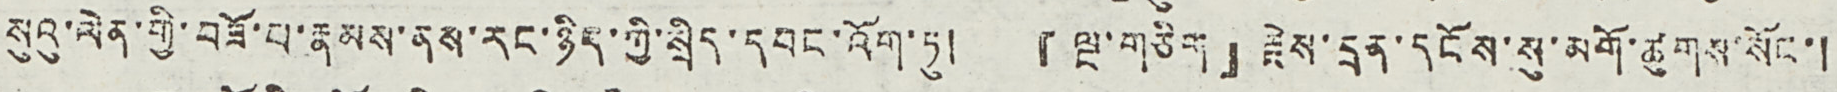སུའུ་ལེན་གྱི་བཟོ་པ་རྣམས་ནས་རང་ཉིད་ཀྱི་སྲིད་དབང་འོག་ཏུ། 『ལྔ་གཅིག』རྗེས་དྲན་དངོས་སུ་མགོ་ཚུགས་སོང་།
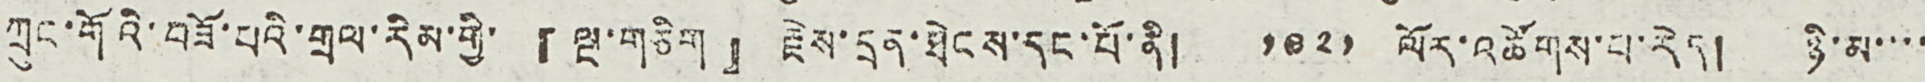ཀྲུང་གོའི་བཟོ་པའི་གྲལ་རིམ་གྱི་『ལྔ་གཅིག』རྗེས་དྲན་ཐེངས་དང་པོ་ནི། ༡༩༢༡ ལོར་འཚོགས་པ་རེད། ཉི་མ་་་་
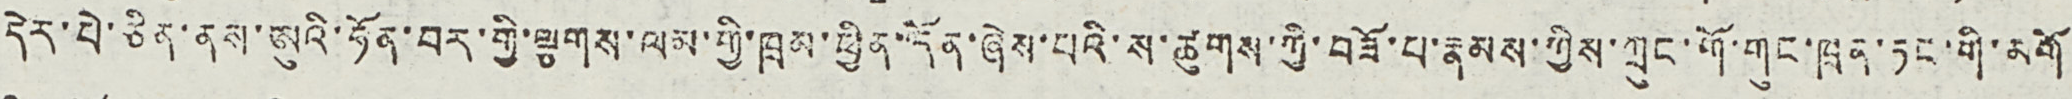དེར་པེ་ཅིན་ནས་ཨུའི་ཧོན་བར་གྱི་ལྕགས་ལམ་གྱི་ཁྲམ་ཕྱིན་དོན་ཞེས་པའི་ས་ཚུགས་ཀྱི་བཟོ་པ་རྣམས་ཀྱིས་ཀྲུང་གོ་གུང་ཁྲན་ཏང་གི་མགོ
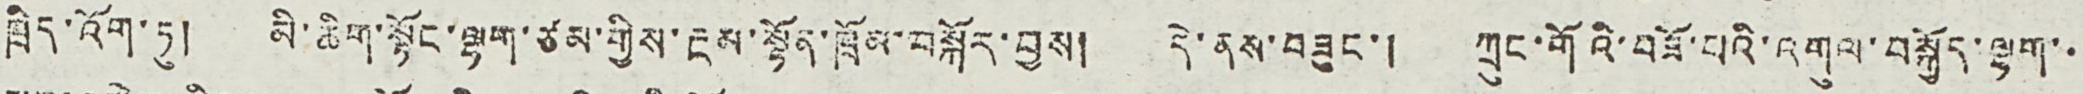ཁྲིད་འོག་ཏུ། མི་ཆིག་སྟོང་ལྷག་ཙམ་གྱིས་རྔམ་སྟོན་ཁྲོམ་བསྐོར་བྱས། དེ་ནས་བཟུང་། ཀྲུང་གོའི་བཟོ་པའི་འགུལ་བསྐྱོད་ལྷག་་
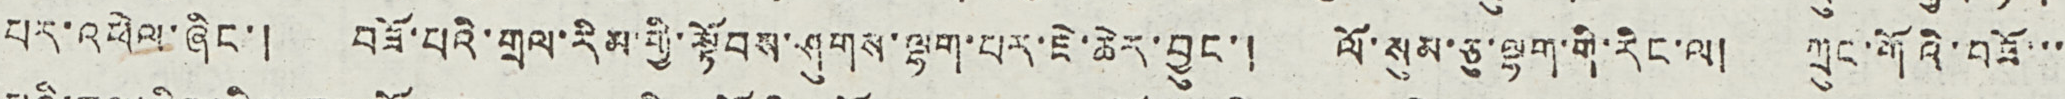པར་འཕེལ་ཞིང་། བཟོ་པའི་གྲལ་རིམ་གྱི་སྟོབས་ཤུགས་ལྷག་པར་ཇེ་ཆེར་བྱུང་། ལོ་སུམ་ཅུ་ལྷག་གི་རིང་ལ། ཀྲུང་གོའི་བཟོ་་་
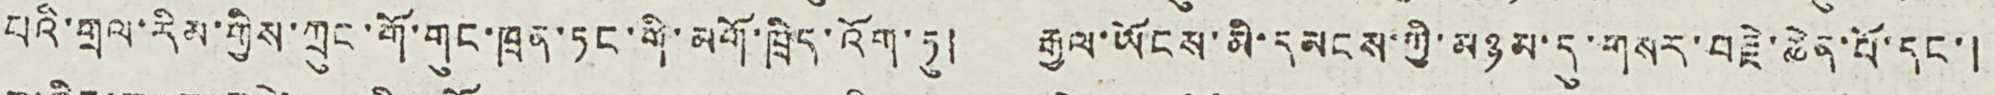པའི་གྲལ་རིམ་གྱིས་ཀྲུང་གོ་གུང་ཁྲན་ཏང་གི་མགོ་ཁྲིད་འོག་ཏུ། རྒྱལ་ཡོངས་མི་དམངས་ཀྱི་མཉམ་དུ་གསར་བརྗེ་ཆེན་པོ་དང་།
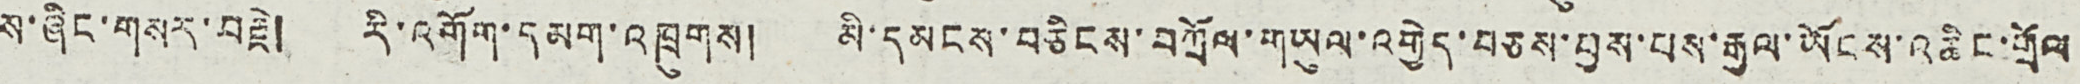ས་ཞིང་གསར་བརྗེ། རི་འགོག་དམག་འཁྲུགས། མི་དམངས་བཅིངས་བཀྲོལ་གཡུལ་འགྱེད་བཅས་བྱས་པས་རྒྱལ་ཡོངས་འཆིང་གྲོལ
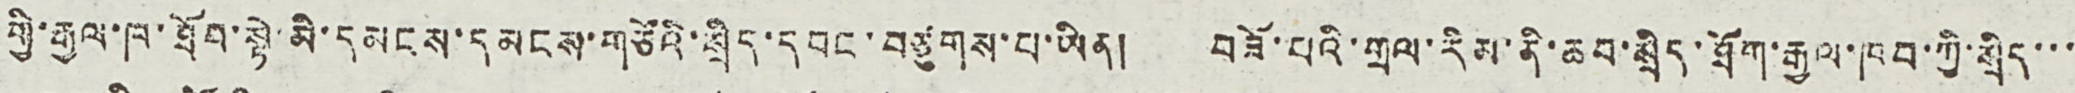གྱི་རྒྱལ་ཁ་ཐོབ་སྟེ་མི་དམངས་དམངས་གཙོའི་སྲིད་དབང་བཙུགས་པ་ཡིན། བཟོ་པའི་གྲལ་རིམ་ནི་ཆབ་སྲིད་ཐོག་རྒྱལ་ཁབ་ཀྱི་སྲིད་་་
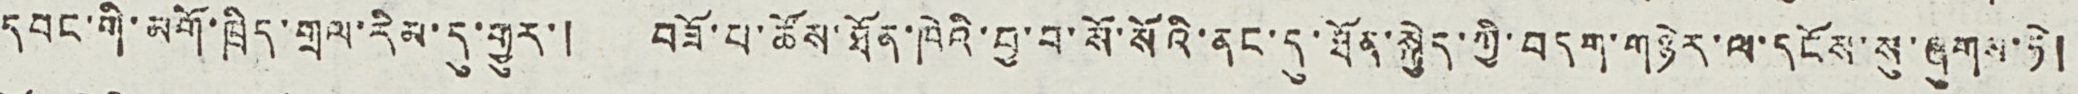དབང་གི་མགོ་ཁྲིད་གྲལ་རིམ་དུ་གྱུར་། བཟོ་པ་ཚོས་ཐོན་ཁེའི་བྱ་བ་སོ་སོའི་ནང་དུ་ཐོན་སྐྱེད་ཀྱི་བདག་གཉེར་ལ་དངོས་སུ་ཞུགས་ཏེ།
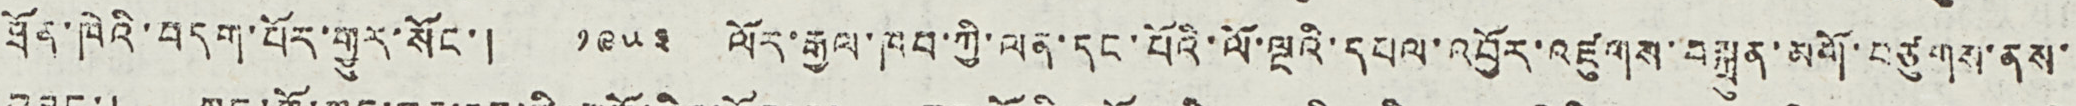ཐོན་ཁེའི་བདག་པོར་གྱུར་སོང་། ༡༩༥༣ ལོར་རྒྱལ་ཁབ་ཀྱི་ལན་དང་པོའི་ལོ་ལྔའི་དཔལ་འབྱོར་འཛུགས་བསྐྲུན་མགོ་བཙུགས་ནས་
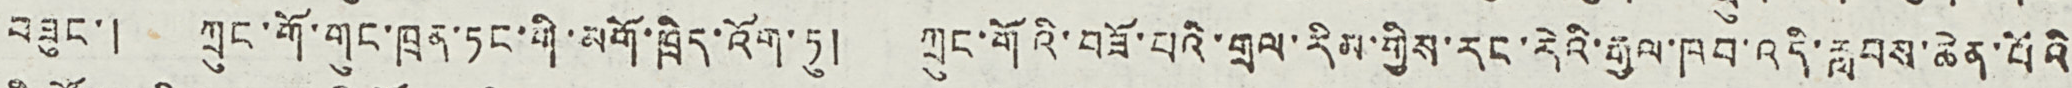བཟུང་། ཀྲུང་གོ་གུང་ཁྲན་ཏང་གི་མགོ་ཁྲིད་འོག་ཏུ། ཀྲུང་གོའི་བཟོ་པའི་གྲལ་རིམ་གྱིས་རང་རེའི་རྒྱལ་ཁབ་འདི་རླབས་ཆེན་པོའི
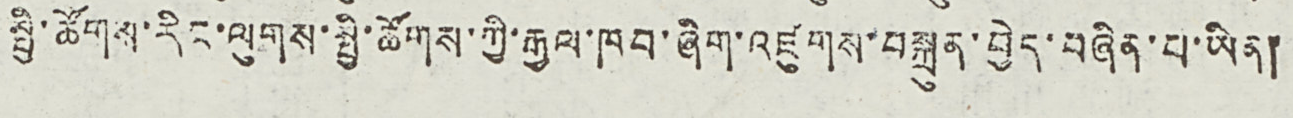སྤྱི་ཚོགས་རིང་ལུགས་སྤྱི་ཚོགས་ཀྱི་རྒྱལ་ཁབ་ཞིག་འཛུགས་བསྐྲུན་བྱེད་བཞིན་པ་ཡིན།
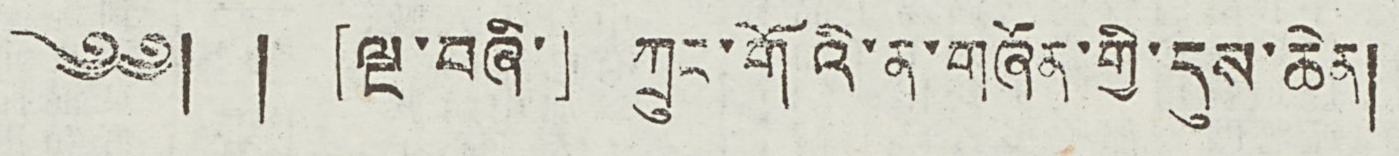༄༅། ། 「ལྔ་བཞི་」 ཀྲུང་གོའི་ན་གཞོན་གྱི་དུས་ཆེན།
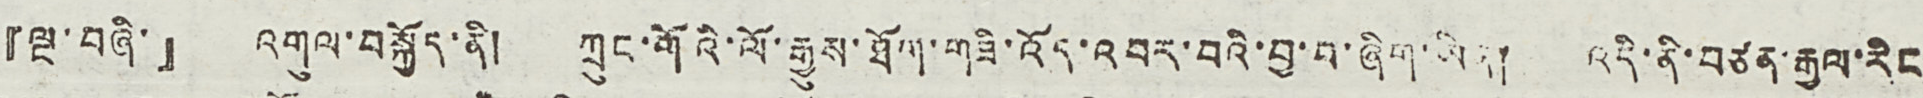『ལྔ་བཞི་』 འགུལ་བསྐྱོད་ནི། ཀྲུང་གོའི་ལོ་རྒྱུས་ཐོག་གཟི་འོད་འབར་བའི་བྱ་བ་ཞིག་ཡིན། འདི་ནི་བཙན་རྒྱལ་རིང
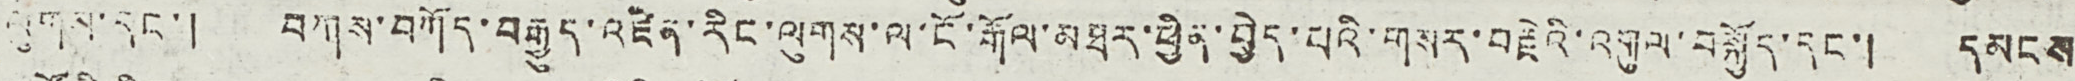ལུགས་དང་། བཀས་བཀོད་བརྒྱུད་འཛིན་རིང་ལུགས་ལ་ངོ་རྒོལ་མཐར་ཕྱིན་བྱེད་པའི་གསར་བརྗེའི་འགུལ་བསྐྱོད་དང་། དམངས
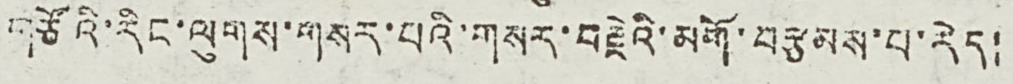གཙོའི་རིང་ལུགས་གསར་པའི་གསར་བརྗེའི་མགོ་བརྩམས་པ་རེད།
